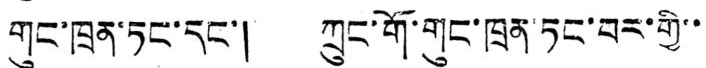གུང་ཁྲན་ཏང་དང་། ཀྲུང་གོ་གུང་ཁྲན་ཏང་བར་གྱི་་
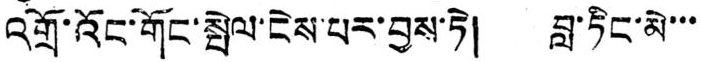འགྲོ་འོང་གོང་སྤེལ་ངེས་པར་བྱས་ཏེ། བླ་ཏིང་མེ་་་
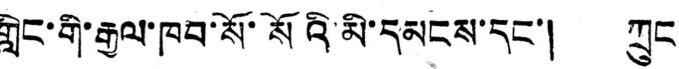གླིང་གི་རྒྱལ་ཁབ་སོ་སོའི་མི་དམངས་དང་། ཀྲུང་
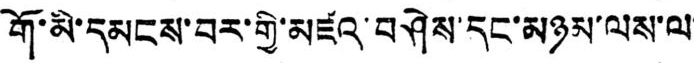གོ་མི་དམངས་བར་གྱི་མཛའ་བཤེས་དང་མཉམ་ལས་ལ་
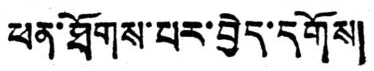ཕན་ཐོགས་པར་བྱེད་དགོས།
